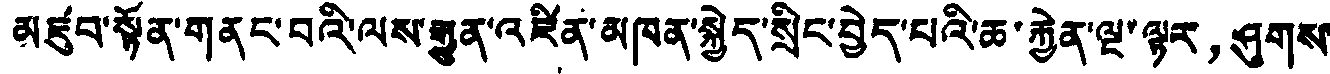མཛུབ་སྟོན་གནང་བའི་ལས་རྒྱུན་འཛིན་མཁན་སྐྱེད་སྲིང་བྱེད་པའི་ཆ་རྐྱེན་ལྔ་ལྟར，ཤུགས་
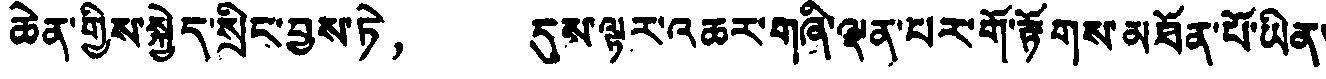ཆེན་གྱིས་སྐྱེད་སྲིང་བྱས་ཏེ， དུས་ལྟར་འཆར་གཞི་ལྡན་པར་གོ་རྟོགས་མཐོན་པོ་ཡིན་
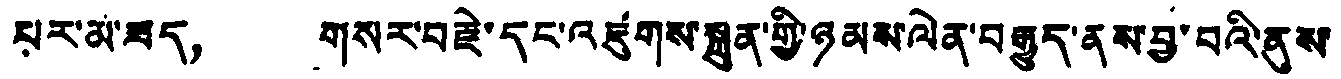པར་མ་ཟད， གསར་བརྗེ་དང་འཛུགས་སྐྲུན་གྱི་ཉམས་ལེན་བརྒྱུད་ནས་བྱ་བའི་ནུས་
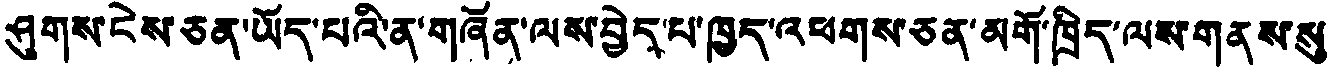ཤུགས་ངེས་ཅན་ཡོད་པའི་ན་གཞོན་ལས་བྱེད་པ་ཁྱད་འཕགས་ཅན་མགོ་ཁྲིད་ལས་གནས་སུ
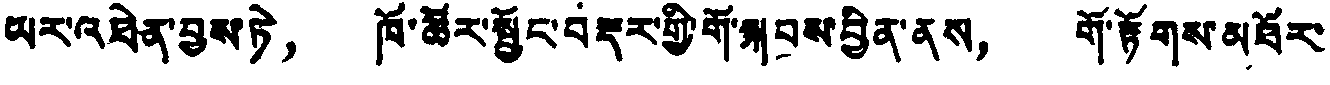ཡར་འཐེན་བྱས་ཏེ， ཁོ་ཚོར་སྦྱོང་བརྡར་གྱི་གོ་སྐབས་བྱིན་ནས， གོ་རྟོགས་མཐོར་
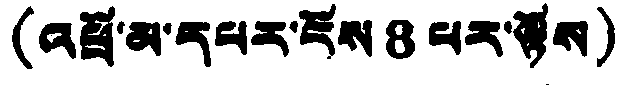(འཕྲོ་མ་དཔར་ངོས 8 པར་ལྟོས)
